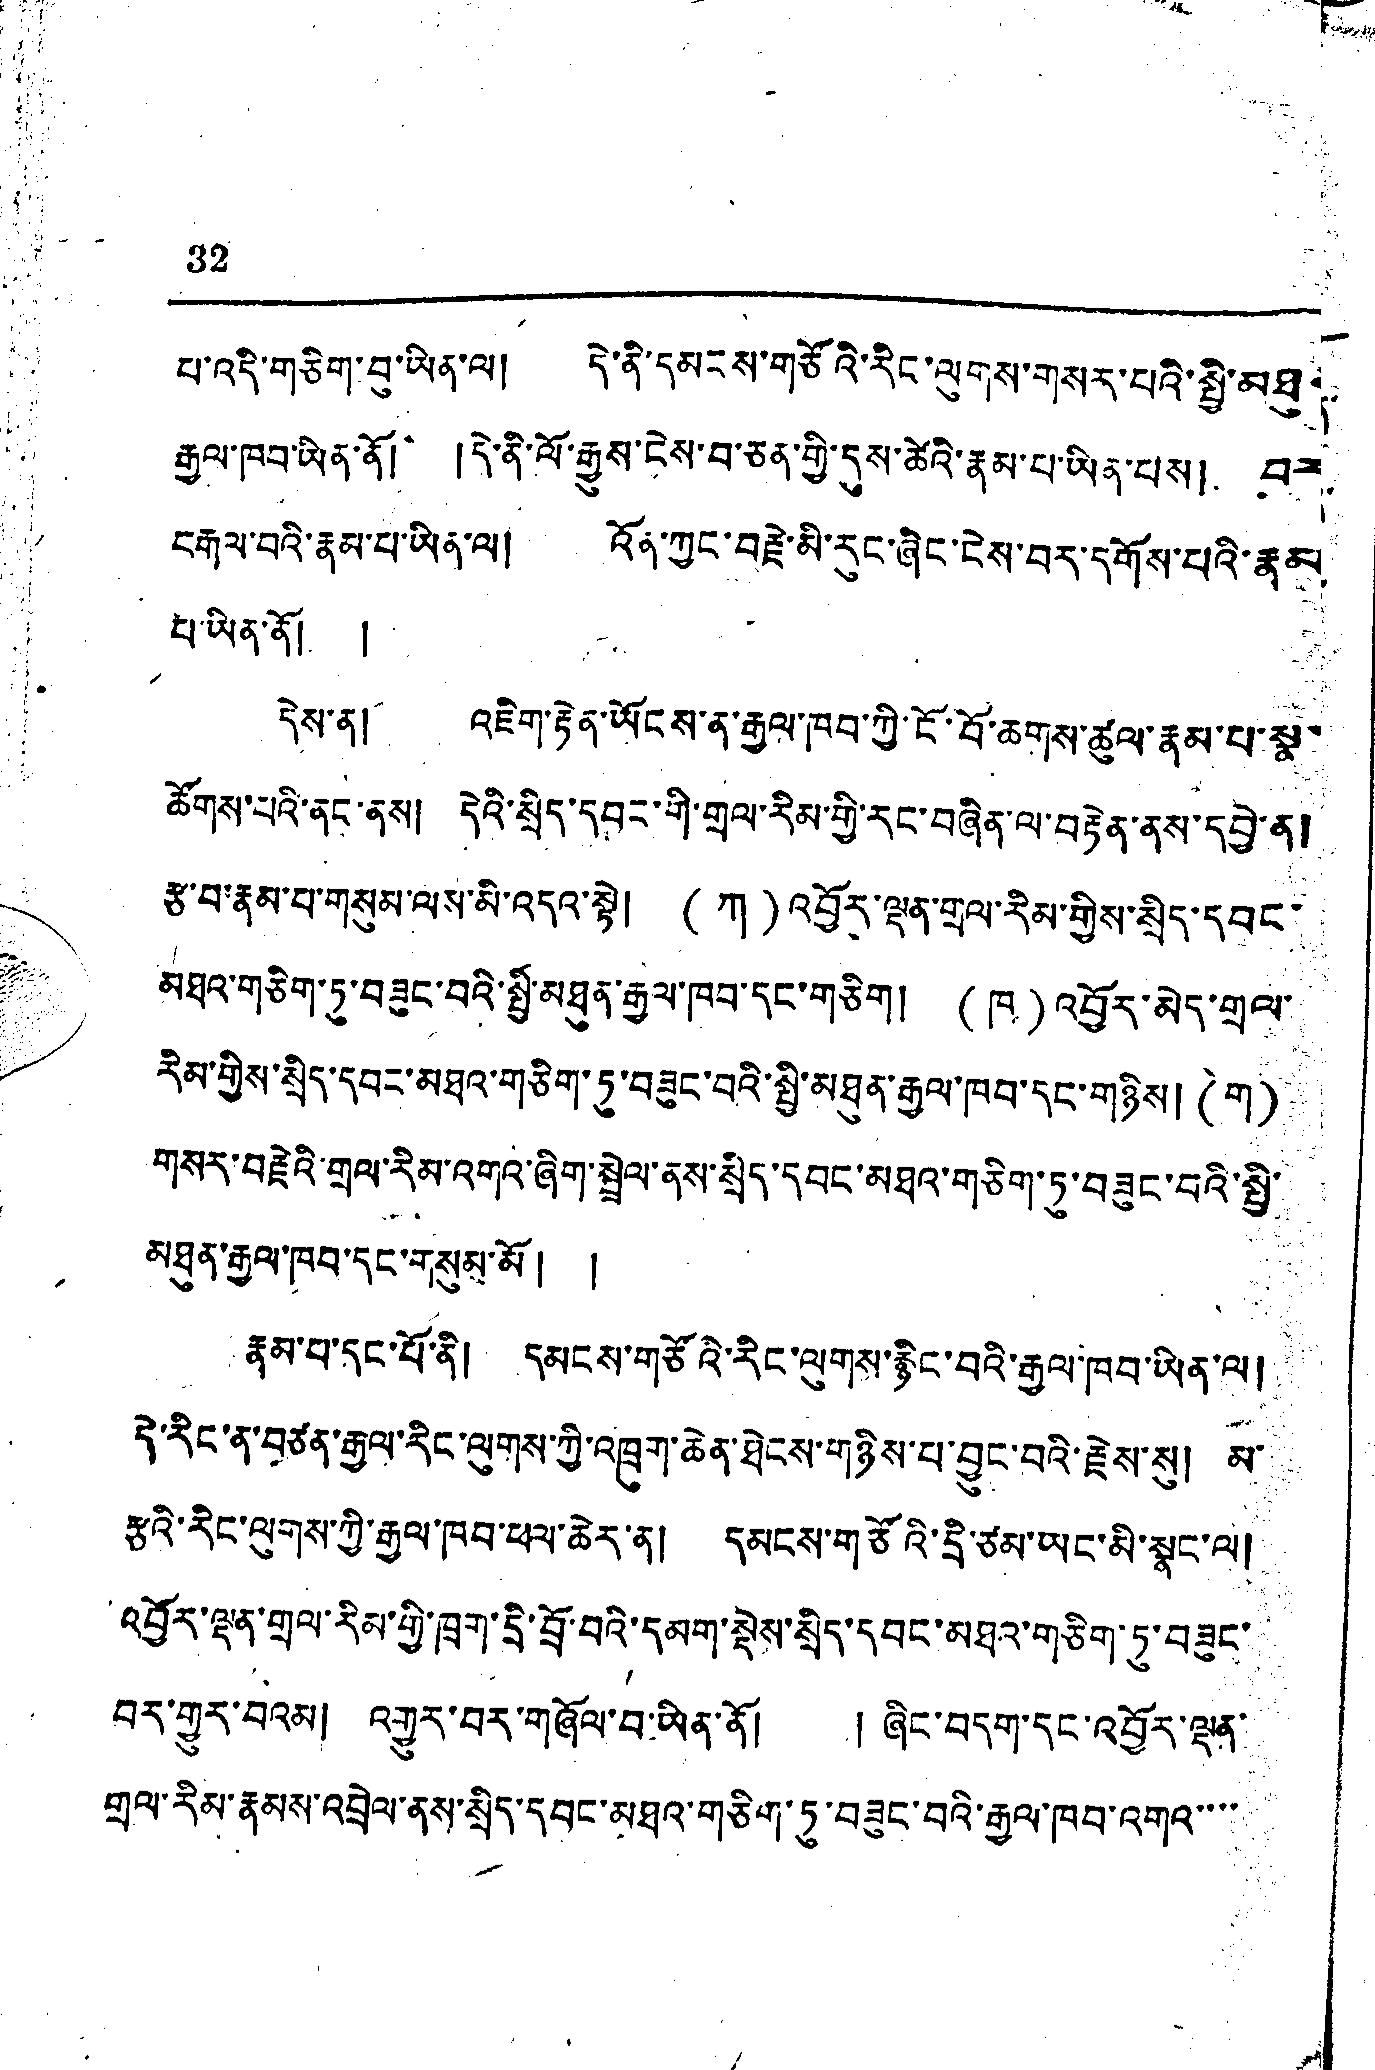32
པ་འདི་གཅིག་བུ་ཡིན་ལ། དེ་ནི་དམངས་གཙོའི་རིང་ལུགས་གསར་པའི་སྤྱི་མཐུན་
རྒྱལ་ཁབ་ཡིན་ནོ། །དེ་ནི་ལོ་རྒྱུས་ངེས་བ་ཅན་གྱི་དུས་ཚེའི་རྣམ་པ་ཡིན་པས། བར་
བརྒལ་བའི་རྣམ་པ་ཡིན་ལ། འོན་ཀྱང་བརྗེ་མི་རུང་ཞིང་ངེས་བར་དགོས་པའི་རྣམ
པ་ཡིན་ནོ། །
དེས་ན། འཇིག་རྟེན་ཡོངས་ན་རྒྱལ་ཁབ་ཀྱི་ངོ་བོ་ཆགས་ཚུལ་རྣམ་པ་སྣ་
ཚོགས་པའི་ནང་ནས། དེའི་སྲིད་དབང་གི་གྲལ་རིམ་གྱི་རང་བཞིན་ལ་བརྟེན་ནས་དབྱེ་ན།
རྩ་བ་རྣམ་པ་གསུམ་ལས་མི་འདའ་སྟེ། (ཀ༡)འབྱོར་ལྡན་གྲལ་རིམ་གྱསི་སྲིད་དབང་
མཐའ་གཅིག་ཏུ་བཟུང་བའི་སྤྱི་མཐུན་རྒྱལ་ཁབ་དང་གཅིག། (ཁ)འབྱོར་མེད་གྲལ་
རིམ་གྱིས་སྲིད་དབང་མཐའ་གཅིག་ཏུ་བཟུང་བའི་སྤྱི་མཐུན་རྒྱལ་ཁབ་དང་གཉིས། (ག)
གསར་བརྗེའི་གྲལ་རིམ་འགའ་ཞིག་སྦྲེལ་ནས་སྲིད་དབང་མཐའ་གཅིག་ཏུ་བཟུང་བའི་སྤྱི་
མཐུན་རྒྱལ་ཁབ་དང་གསུམ་མོ། །
རྣམ་པ་དང་པོ་ནི། དམངས་གཙོའི་རིང་ལུགས་རྙིང་བའི་རྒྱལ་ཁབ་ཡིན་ལ།
དེ་རིང་ན་བཙན་རྒྱལ་རིང་ལུགས་ཀྱི་འཁྲུག་ཆེན་ཐེངས་གཉིས་པ་བྱུང་བའི་རྗེས་སུ། མ་
རྩའི་རིང་ལུགས་ཀྱི་རྒྱལ་ཁབ་ཕལ་ཆེར་ན། དམངས་གཙོའི་དྲི་ཙམ་ཡང་མི་སྣང་ལ།
འབྱོར་ལྡན་གྲལ་རིམ་གྱི་ཁག་དྲི་བྲོ་བའི་དམག་སྡེས་སྲིད་དབང་མཐའ་གཅིག་ཏུ་བཟུང་
བར་གྱུར་བའམ། འགྱུར་བར་གཞོལ་བ་ཡིན་ནོ། ། ཞིང་བདག་དང་འབྱོར་ལྡན་
གྲལ་རིམ་རྣམས་འབྲེལ་ནས་སྲིད་དབང་མཐའ་གཅིག་ཏུ་བཟུང་བའི་རྒྱལ་ཁབ་འགའ་་་་
